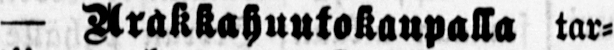— Arakkahuutokaupalla tar-
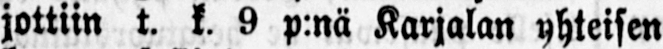jottiin t. k. 9 p:nä Karjalan yhteisen
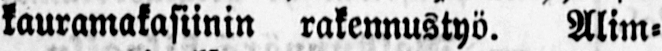kauramakasiinin rakennustyö. Alim-
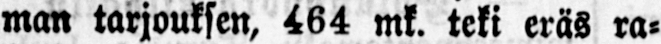man tarjouksen, 464 mk. teki eräs ra-
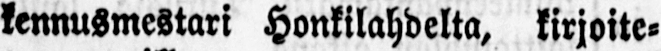kennusmestari Honkilahdelta, kirjoite-
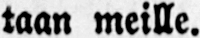taan meille.
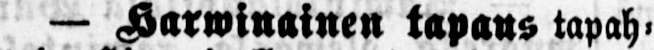— Harwinainen tapaus tapah-
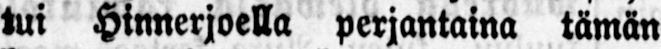tui Hinnerjoella perjantaina tämän
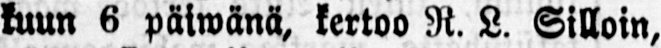kuun 6 päiwänä, kertoo R. L. Silloin,
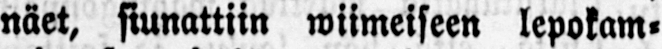näet, siunattiin wiimeiseen lepokam-
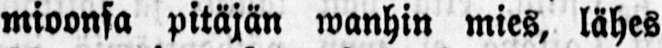mioonsa pitäjän wanhin mies, lähes
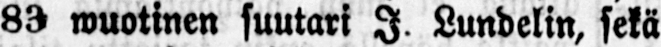83 wuotinen suutari I. Lundelin, sekä
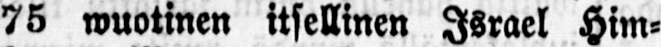75 wuotinen itsellinen Israel Him-
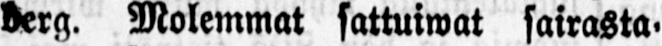berg. Molemmat sattuuiwat sairasta-
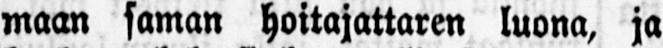maan saman hoitajattaren luona, ja
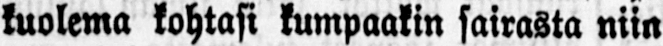kuolema kohtasi kumpaakin sairasta niin
